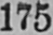175
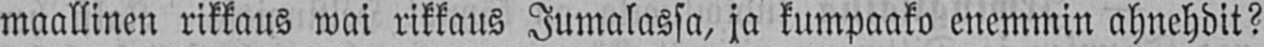maallinen rikkaus wai rikkaus Jumalassa, ja kumpaako enemmin ahnehdit?
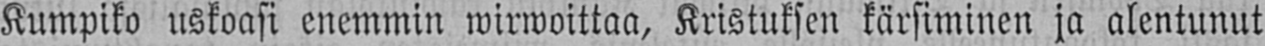Kumpiko uskoasi enemmin wirwoittaa, Kristuksen kärsiminen ja alentunut
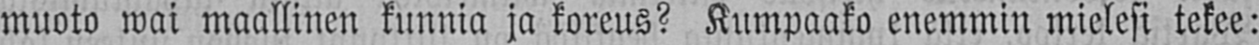muoto wai maallinen kunnia ja koreus? Kumpaako enemmin mielesi tekee:
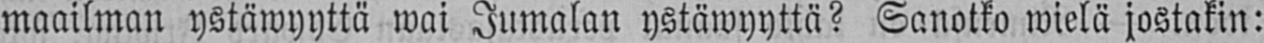maailman ystäwyyttä wai Jumalan ystäwyyttä? Sanotko wielä jostakin:
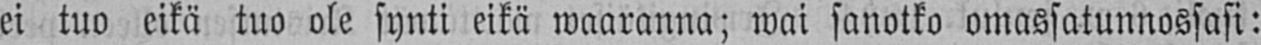ei tuo eikä tuo ole synti eikä waaranna; wai sanotko omassatunnossasi:
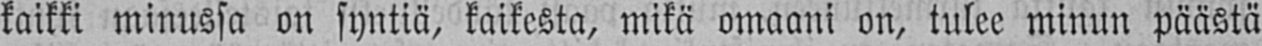kaikki minussa on syntiä, kaikesta, mikä omaani on, tulee minun päästä
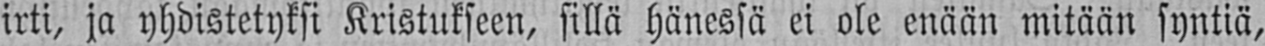irti, ja yhdistetyksi Kristukseen, sillä hänessä ei ole enään mitään syntiä,
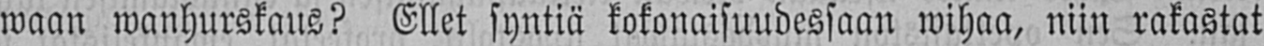waan wanhurskaus? Ellet syntiä kokonaisuudessaan wihaa, niin rakastat
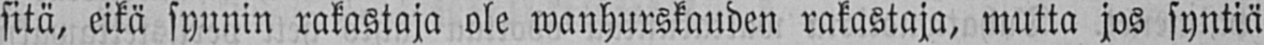sitä, eikä synnin rakastaja ole wanhurskauden rakastaja, mutta jos syntiä
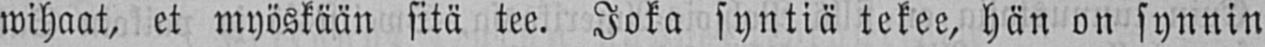wihaat, et myöskään sitä tee. Joka syntiä tekee, hän on synnin
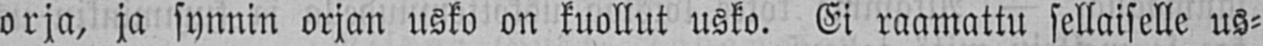orja, ja synnin orjan usko on kuollut usko. Ei raamattu sellaiselle us-
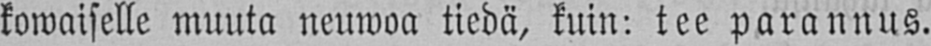kowaiselle muuta neuwoa tiedä, kuin: tee parannus.
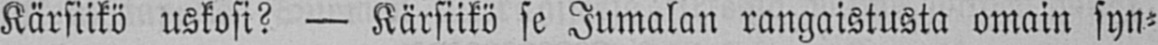Kärsiikö uskosi? — Kärsiikö se Jumalan rangaistusta omain syn-
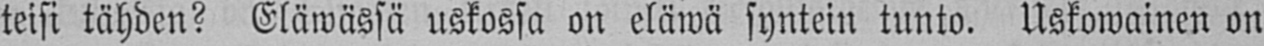teisi tähden? Eläwässä uskossa on eläwä syntein tunto. Uskowainen on
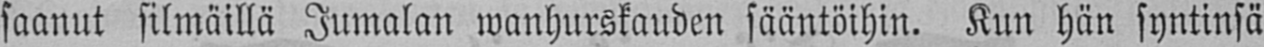saanut silmäillä Jumalan wanhurskauden sääntöihin. Kun hän syntinsä
